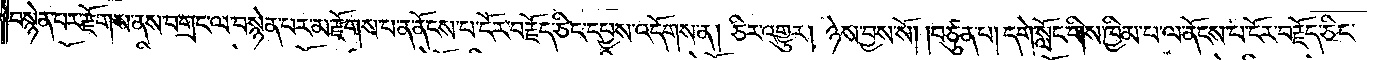བསྙེན་པར་རྫོགས་ནས་བགྲང་ལ་བསྙེན་པར་མ་རྫོགས་པ་ན་ནོངས་པ་ངོར་བརྗོད་ཅིང་དཔྱས་འདོགས་ན། ཅིར་འགྱུར། ཉེས་བྱས་སོ། །བཙུན་པ། དགེ་སློང་གིས་ཁྱིམ་པ་ལ་ནོངས་པ་ངོར་བརྗོད་ཅིང་
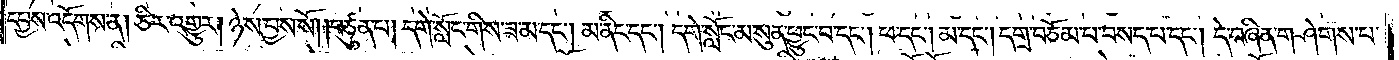དཔྱས་འདོགས་ན། ཅིར་འགྱུར། ཉེས་བྱས་སོ། །བཙུན་པ། དགེ་སློང་གིས་ཟ་མ་དང༌། མ་ནིང་དང༌། དགེ་སློང་མ་སུན་ཕྱུང་བ་དང༌། ཕ་དང༌། མ་དང༌། དགྲ་བཅོམ་པ་བསད་པ་དང༌། དེ་བཞིན་གཤེགས་པ་
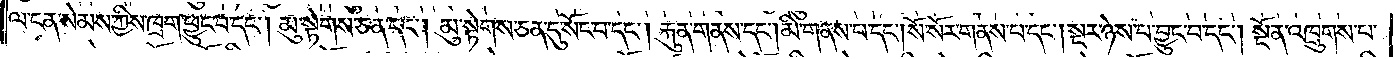ལ་ངན་སེམས་ཀྱིས་ཁྲག་ཕྱུང་བ་དང༌། མུ་སྟེགས་ཅན་དང༌། མུ་སྟེགས་ཅན་དུ་སོང་བ་དང༌། རྐུན་གནས་དང༌། མི་གནས་པ་དང༌། སོ་སོར་གནས་པ་དང༌། སྔར་ཉེས་པ་བྱུང་བ་དང༌། སྔོན་འཁྲུགས་པ་
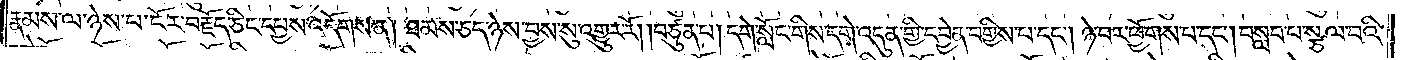རྣམས་ལ་ཉེས་པ་ངོར་བརྗོད་ཅིང་དཔྱས་འདོགས་ན། ཐམས་ཅད་ཉེས་བྱས་སུ་འགྱུར་རོ། །བཙུན་པ། དགེ་སློང་གིས་དགེ་འདུན་གྱི་དབྱེན་བགྱིས་པ་དང༌། ཉེ་བར་ཕྱོགས་པ་དང༌། བསླབ་པ་སྩལ་པའི་
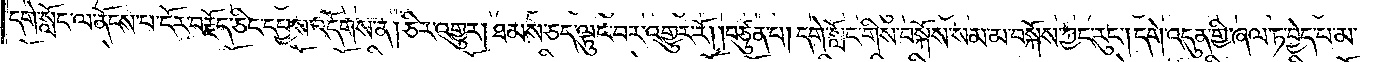དགེ་སློང་ལ་ནོངས་པ་ངོར་བརྗོད་ཅིང་དཔྱས་འདོགས་ན། ཅིར་འགྱུར། ཐམས་ཅད་ལྟུང་བར་འགྱུར་རོ། །བཙུན་པ། དགེ་སློང་གིས་བསྐོས་སམ་མ་བསྐོས་ཀྱང་རུང༌། དགེ་འདུན་གྱི་ཞལ་ཏ་བྱེད་པ་མ་
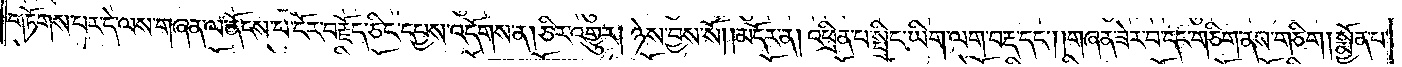གཏོགས་པར་དེ་ལས་གཞན་ལ་ནོངས་པ་ངོར་བརྗོད་ཅིང་དཔྱས་འདོགས་ན། ཅིར་འགྱུར། ཉེས་བྱས་སོ། །མདོར་ན། འཕྲིན་པ་སྤྲིང་ཡིག་ལག་བརྡ་དང༌། །གཞན་ཟེར་བ་དང་གཅིག་ནས་གཅིག །སྨྱོན་པ་
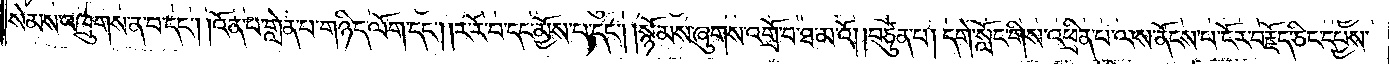སེམས་འཁྲུགས་ན་བ་དང༌། །འོན་པ་གླེན་པ་གཉིད་ལོག་དང༌། །ར་རོ་བ་དང་མྱོས་པ་དང༌། །སྙོམས་ཞུགས་འགྲོ་བ་ཐ་མ་འོ། །བཙུན་པ། དགེ་སློང་གིས་འཕྲིན་པ་ལས་ནོངས་པ་ངོར་བརྗོད་ཅིང་དཔྱས་
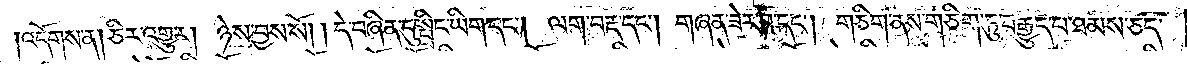།འདོགས་ན། ཅིར་འགྱུར། ཉེས་བྱས་སོ། །དེ་བཞིན་དུ་སྤྲིང་ཡིག་དང༌། ལག་བརྡ་དང༌། གཞན་ཟེར་བ་དང༌། གཅིག་ནས་གཅིག་ཏུ་བརྒྱུད་པ་ཐམས་ཅད་
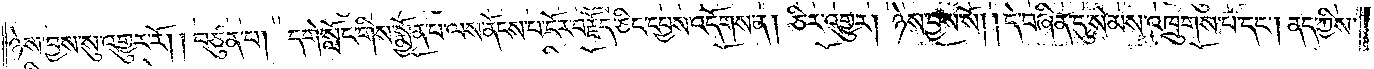ཉེས་བྱས་སུ་འགྱུར་རོ། །བཙུན་པ། དགེ་སློང་གིས་སྨྱོན་པ་ལས་ནོངས་པ་ངོར་བརྗོད་ཅིང་དཔྱས་འདོགས་ན། ཅིར་འགྱུར། ཉེས་བྱས་སོ། །དེ་བཞིན་དུ་སེམས་འཁྲུགས་པ་དང༌། ནད་ཀྱིས་
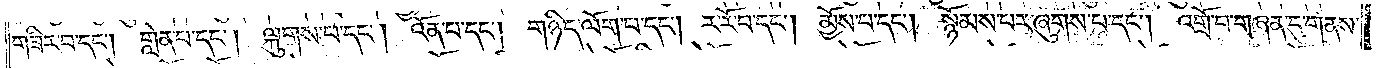གཟིར་བ་དང༌། གླེན་པ་དང༌། ལྐུགས་པ་དང༌། འོན་པ་དང༌། གཉིད་ལོག་པ་དང༌། ར་རོ་བ་དང༌། མྱོས་པ་དང༌། སྙོམས་པར་ཞུགས་པ་དང༌། འགྲོ་བ་གཞན་དུ་གནས་
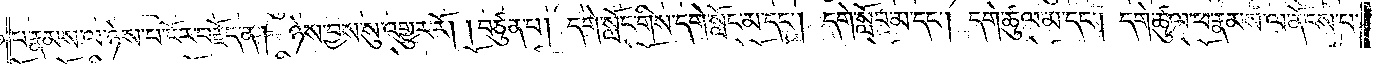པ་རྣམས་ལ་ཉེས་པ་ངོར་བརྗོད་ན། ཉེས་བྱས་སུ་འགྱུར་རོ། །བཙུན་པ། དགེ་སློང་གིས་དགེ་སློང་མ་དང༌། དགེ་སློབ་མ་དང༌། དགེ་ཚུལ་མ་དང༌། དགེ་ཚུལ་ཕ་རྣམས་ལ་ནོངས་པ་
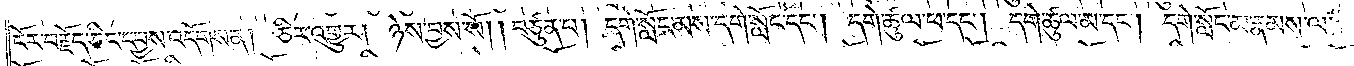ངོར་བརྗོད་ཅིང་དཔྱས་འདོགས་ན། ཅིར་འགྱུར། ཉེས་བྱས་སོ། །བཙུན་པ། དགེ་སློང་མས་དགེ་སློང་དང༌། དགེ་ཚུལ་ཕ་དང༌། དགེ་ཚུལ་མ་དང༌། དགེ་སློང་མ་རྣམས་ལ་
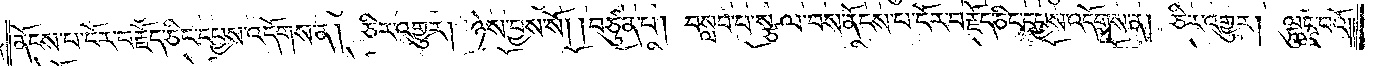ནོངས་པ་ངོར་བརྗོད་ཅིང་དཔྱས་འདོགས་ན། ཅིར་འགྱུར། ཉེས་བྱས་སོ། །བཙུན་པ། བསླབ་པ་སྩལ་བས་ནོངས་པ་ངོར་བརྗོད་ཅིང་དཔྱས་འདོགས་ན། ཅིར་འགྱུར། ལྟུང་བའོ། །
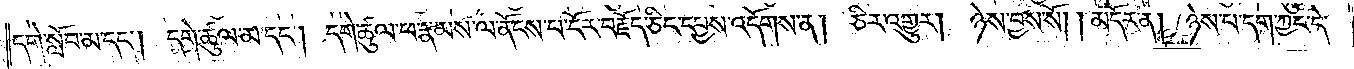དགེ་སློབ་མ་དང༌། དགེ་ཚུལ་མ་དང༌། དགེ་ཚུལ་ཕ་རྣམས་ལ་ནོངས་པ་དོར་བརྗོད་ཅིང་དཔྱས་འདོགས་ན། ཅིར་འགྱུར། ཉེས་བྱས་སོ།    །མདོར་ན། ཉེས་པ་དག་ཀྱང་དེ་
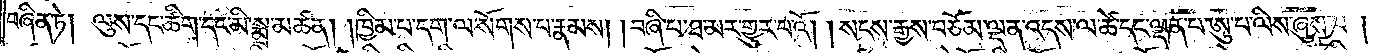བཞིན་ཏེ། ལུས་དང་ཚིག་དང་མི་སྨྲ་མཚན། ཁྱིམ་པ་དག་ལ་སོགས་པ་རྣམས། །བཞི་པ་ཐ་མར་གྱུར་པའོ། །སངས་རྒྱས་བཅོམ་ལྡན་འདས་ལ་ཚེ་དང་ལྡན་པ་ཨུ་པ་ལིས་ཞུས་པ།
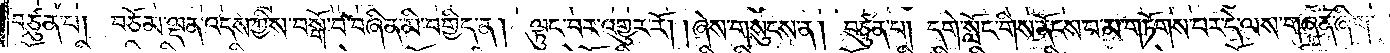བཙུན་པ། བཅོམ་ལྡན་འདས་ཀྱིས་བསྒོ་བ་བཞིན་མི་བགྱིད་ན། ལྟུང་བར་འགྱུར་རོ། །ཞེས་གསུངས་ན། བཙུན་པ། དགེ་སློང་གིས་ནོངས་པ་མ་གཏོགས་པར་དེ་ལས་གཞན་ཞིག་
